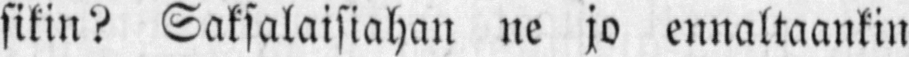sikin? Saksalaistahan ne jo ennaltaankin
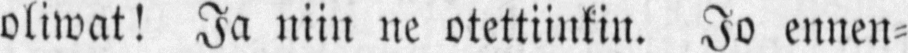oliwat! Ja niin ne otettiinkin. Jo ennen-
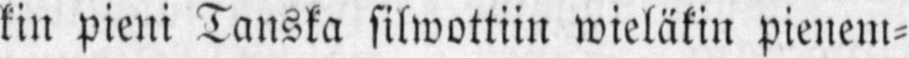kin pieni Tanska silwottiin wieläkin pienem-
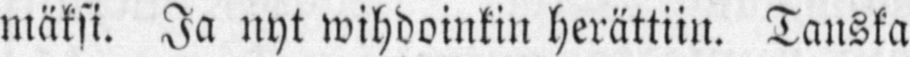mäksi. Ja nyt wihdoinkin herättiin. Tanska
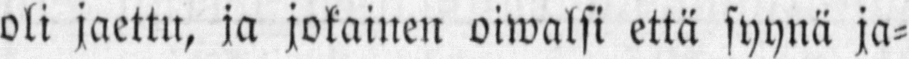oli jaettu, ja jokainen oiwalsi että syynä ja-
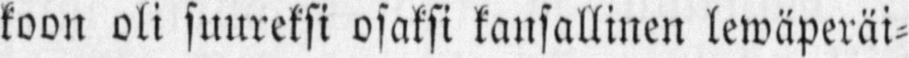koon oli suureksi osaksi kansallinen lewäperäi-
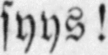syys!
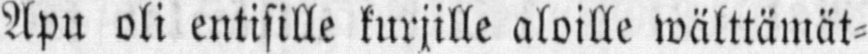Apu oli entisille kurjille aloille wälttämät-
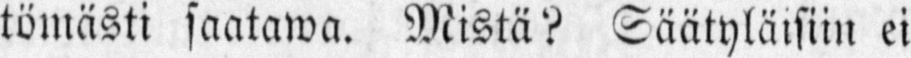tömästi saatawa. Mistä? Säätyläisiin ei
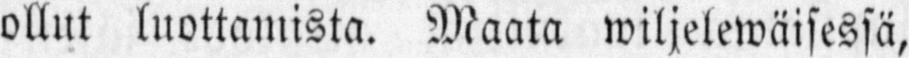ollut luottamista. Maata wiljelewäisessä,
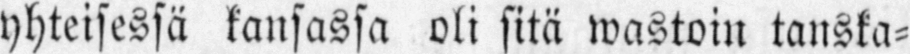yhteisessä kansassa oli sitä wastoin tanska-
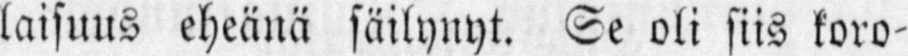laisuus eheänä säilynyt. Se oli siis koro-
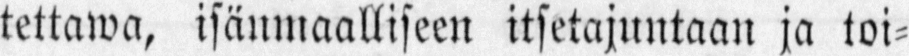tettawa, isänmaalliseen itsetajuntaan ja toi-
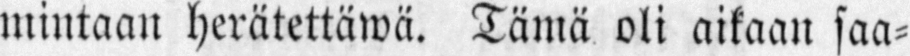mintaan herätettäwä. Tämä oli aikaan saa-
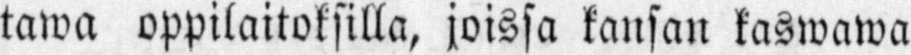tawa oppilaitoksilla, joissa kansan kaswawa
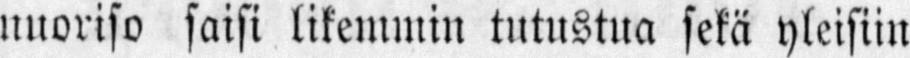nuoriso saisi likemmin tutustua sekä yleisiin
